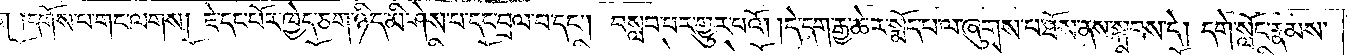པ་དག །དགོས་པ་གང་ལགས། ཇེ་དང་པོར་ཁྱེད་ཅག་ཉིད་མི་ཤེས་པ་དང་བྲལ་བ་དང༌། བསླབ་པར་གྱུར་པའོ། །དེ་དག་རྒྱ་ཆེར་སྨོད་པ་ལ་ཞུགས་པ་ཐོས་ནས་སྐབས་དེ། དགེ་སློང་རྣམས་
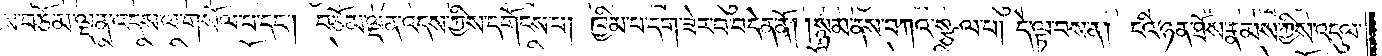ཀྱིས་བཅོམ་ལྡན་འདས་ལ་གསོལ་པ་དང༌། བཅོམ་ལྡན་འདས་ཀྱིས་དགོངས་པ། ཁྱིམ་པ་དག་ཟེར་བ་བདེན་ནོ། །སྙམ་ནས་བཀའ་སྩལ་པ། དེ་ལྟ་བས་ན། ངའི་ཉན་ཐོས་རྣམས་ཀྱིས་འདུལ་
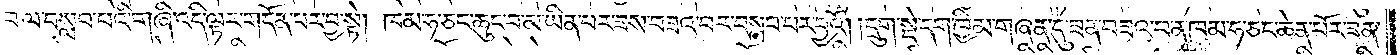བ་ལ་བསླབ་པའི་གཞི་འདི་ལྟར་གདོན་པར་བྱ་སྟེ། ཁམ་ཧ་ཅང་ཆུང་བ་མ་ཡིན་པར་ཟས་བཟའ་བར་བསླབ་པར་བྱའོ། །དྲུག་སྡེ་དག་ཁྱིམ་གཞན་དུ་ཟན་བཟའ་བ་ན་ཁམ་ཧ་ཅང་ཆེན་པོར་ཟན་
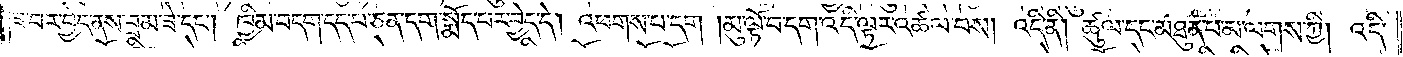ཟ་བར་བྱེད་ནས་བྲམ་ཟེ་དང༌། ཁྱིམ་བདག་དད་པ་ཅན་དག་སྨོད་པར་བྱེད་དེ། འཕགས་པ་དག །མུ་ལྟོ་བ་དག་འདི་ལྟར་འཚལ་བས། འདི་ནི། ཚུལ་དང་མཐུན་པ་མ་ལགས་ཀྱི། འདི་
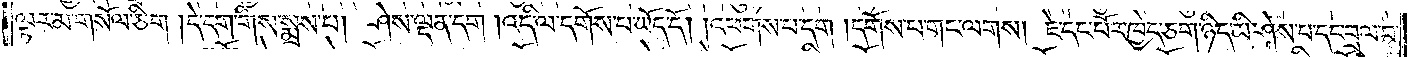ལྟར་མ་གསོལ་ཅིག །དེ་དག་གིས་སྨྲས་པ། ཤེས་ལྡན་དག །འདི་ལ་དགོས་པ་ཡོད་དོ། །འཕགས་པ་དག །དགོས་པ་གང་ལགས། ཇེ་དང་པོར་ཁྱེད་ཅག་ཉིད་མི་ཤེས་པ་དང་བྲལ་བ་
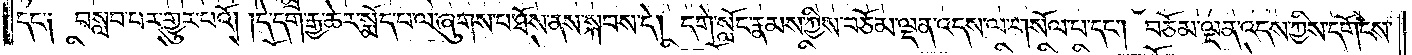དང་༑ བསླབ་པར་གྱུར་བའོ། །དེ་དག་རྒྱ་ཆེར་སྨོད་པ་ལ་ཞུགས་པ་ཐོས་ནས་སྐབས་དེ། དགེ་སློང་རྣམས་ཀྱིས་བཅོམ་ལྡན་འདས་ལ་གསོལ་བ་དང༌། བཅོམ་ལྡན་འདས་ཀྱིས་དགོངས་
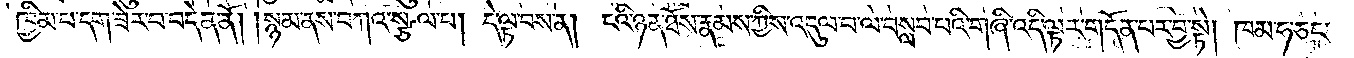ཁྱིམ་པ་དག་ཟེར་བ་བདེན་ནོ། །སྙམ་ནས་བཀའ་སྩལ་པ། དེ་ལྟ་བས་ན། ངའི་ཉན་ཐོས་རྣམས་ཀྱིས་འདུལ་བ་ལ་བསླབ་པའི་གཞི་འདི་ལྟར། དོན་པར་བྱ་སྟེ། ཁམ་ཧ་ཅང་
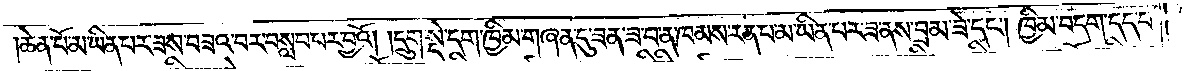ཆེན་པོ་མ་ཡིན་པར་ཟས་བཟའ་བར་བསླབ་པར་བྱའོ། །དྲུག་སྡེ་དག་ཁྱིམ་གཞན་དུ་ཟན་ཟ་བ་ན་ཁམས་རན་པ་མ་ཡིན་པར་ཟ་ནས་བྲམ་ཟེ་དང༌། ཁྱིམ་བདག་དད་པ་
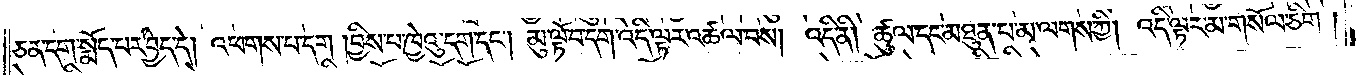ཅན་དག་སྨོད་པར་བྱེད་དེ། འཕགས་པ་དག །བྱིས་པ་ཁྱེའུ་དག་དང༌། མུ་ལྟོ་བ་དག་འདི་ལྟར་འཚལ་བས། འདི་ནི། ཚུལ་དང་མཐུན་པ་མ་ལགས་ཀྱི། འདི་ལྟར་མ་གསོལ་ཅིག །
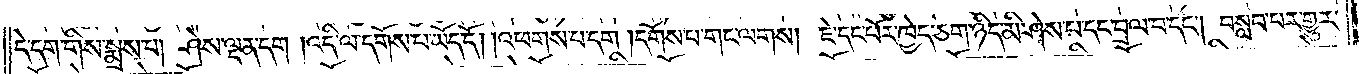དེ་དག་གིས་སྨྲས་པ། ཤེས་ལྡན་དག །འདི་ལ་དགོས་པ་ཡོད་དོ། །འཕགས་པ་དག །དགོས་པ་གང་ལགས། ཇེ་དང་པོར་ཁྱེད་ཅག་ཉིད་མི་ཤེས་པ་དང་བྲལ་བ་དང༌། བསླབ་པར་གྱུར་
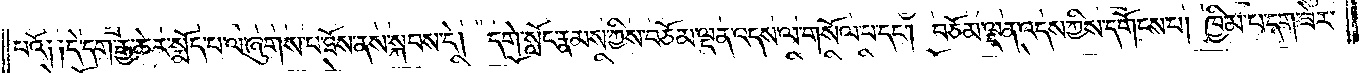པའོ༑ ༑དེ་དག་རྒྱ་ཆེར་སྨོད་པ་ལ་ཞུགས་པ་ཐོས་ནས་སྐབས་དེ། དགེ་སློང་རྣམས་ཀྱིས་བཅོམ་ལྡན་འདས་ལ་གསོལ་བ་དང༌། བཅོམ་ལྡན་འདས་ཀྱིས་དགོངས་པ། ཁྱིམ་པ་དག་ཟེར་
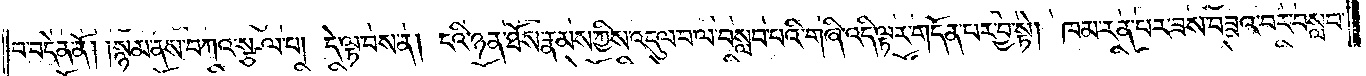བ་བདེན་ནོ། །སྙམ་ནས་བཀའ་སྩལ་པ། དེ་ལྟ་བས་ན། ངའི་ཉན་ཐོས་རྣམས་ཀྱིས་འདུལ་བ་ལ་བསླབ་པའི་གཞི་འདི་ལྟར་གདོན་པར་བྱ་སྟེ། ཁམ་རན་པར་ཟས་བཟའ་བར་བསླབ་
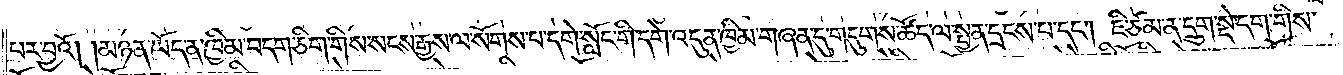པར་བྱའོ། །མཉན་ཡོད་ན་ཁྱིམ་བདག་ཅིག་གིས་སངས་རྒྱས་ལ་སོགས་པ་དགེ་སློང་གི་དགེ་འདུན་ཁྱིམ་གཞན་དུ་གདུགས་ཚོད་ལ་སྤྱན་དྲངས་པ་དང༌། ཇི་ཙམ་ན་དྲུག་སྡེ་དག་གིས་
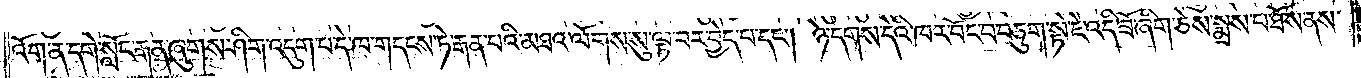འོག་ན་དགེ་སློང་རྒན་ཞུགས་ཤིག་འདུག་པ་དེ་ཁ་གདངས་ཏེ་རྒན་པའི་མཐའ་ལོགས་སུ་ལྟ་བར་བྱེད་པ་དང༌། ཉེ་དགས་དེའི་ཁར་བོང་བ་བཅུག་སྟེ་ཇེ་འདི་ཟོ་ཞིག་ཅེས་སྨྲས་པ་ཐོས་ནས་
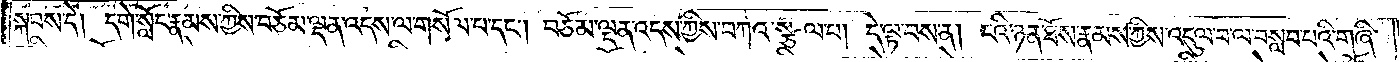སྐབས་དེ། དགེ་སློང་རྣམས་ཀྱིས་བཅོམ་ལྡན་འདས་ལ་གསོལ་བ་དང༌། བཅོམ་ལྡན་འདས་ཀྱིས་བཀའ་སྩལ་པ། དེ་ལྟ་བས་ན། ངའི་ཉན་ཐོས་རྣམས་ཀྱིས་འདུལ་བ་ལ་བསླབ་པའི་གཞི་
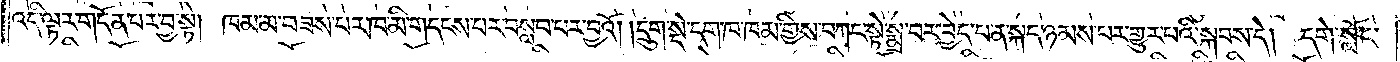འདི་ལྟར་གདོན་པར་བྱ་སྟེ། ཁམ་མ་བཟས་པར་ཁ་མི་གདངས་པར་བསླབ་པར་བྱའོ། །དྲུག་སྡེ་དག་ཁ་ཁམ་གྱིས་བཀང་སྟེ་སྨྲ་བར་བྱེད་པ་ན་སྐད་ཉམས་པར་གྱུར་པའི་སྐབས་དེ། དགེ་སློང་
